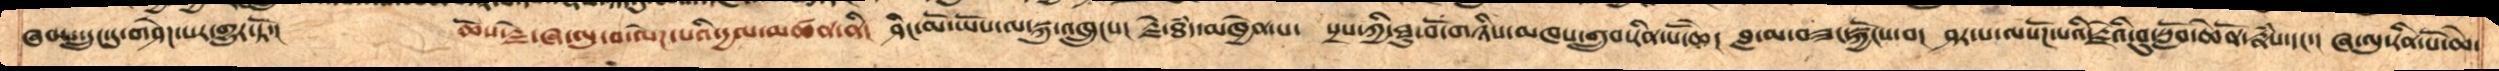ཞབས་དྲུང་དུ་གཤེཌ་པར་གྱུར་ཏོ།     ཆོས་རྗེ་ཞ་ལུ་བ་ལེཌ་པ་དྱལ་མཚན་ནི།  ཤིང་མོ་ཡོས་ལ་སྐུ་འཁྲུངས།  རྗེ་ཐཾད་མཁྱེན་པ།  སྲས་ཀྱི་ཐུ་བོ་གཉིས་མཁས་གྲུབ་རིན་པོ་ཆེ།  བླ་མ་བཟང་སྐྱོངས་བ།  ཤར་པ་ལསོཌ་པའི་རྗེའི་བུ་སློབ་ཆེན་པོ་རྣཾས་དང་།  ཞ་ལུ་རིན་པོ་ཆེ་
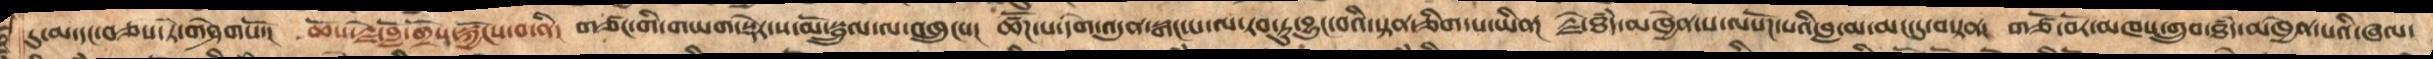དུ་མ་དང་བཅས་ཏེ་གཤེགསོ།  ཆོས་རྗེ་བློ་གྲོས་སྐྱོངས་བ་ནི།  གཙང་གི་གཡག་སྡེར་ས་མོ་སྦྲུལ་ལ་འཁྲུངས།  ཚོཌ་པ་དགེ་འདུན་སྒང་པ་ལ་རབ་ཏུ་བྱུང་བའི་སྟན་ཅིག་པ་ཡིན།  རྗེ་ཐཾད་མཁྱེན་པ་ལསོཌ་པའི་བླ་མ་མང་དུ་བསྟན།  གཙོ་བོར་མཁས་གྲུབ་ཐཾད་མཁྱེན་པའི་ཞལ་
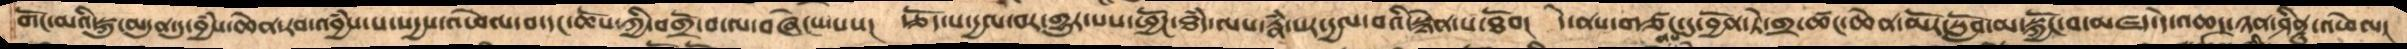གོང་མའི་སྐུ་མདུན་དུ་བྱཾས་ཆེན་རབ་འབྱཾས་པ་སདྱས་འཕེལ་བ་དང་ཆོས་ཀྱི་འགྲོ་བ་ལ་བཞེངས་པས།  རྩོད་པ་དྱལ་བར་གྱུར་པས་ཕྱོཌ་ཐཾད་ལས་རྣཾ་པར་དྱལ་བའི་སྙེན་པ་ཐོབ།  དེ་ནས་གཙང་དུ་བྱོན་ཏེ་གྲ་ཚང་ཆེན་མོར་སློབ་མ་སྐྱོང་བ་མཛད་དེ་འཆད་ཉན་ཤིནྟུ་འཕེལ།
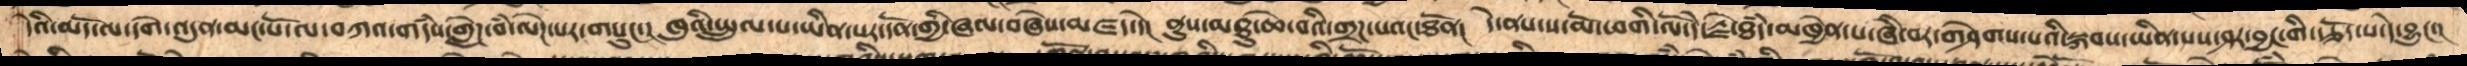དེའི་མོད་ལ་དགེ་འདུན་མང་པོ་ལ་བཀའ་གདཾས་གླེཌ་བཾ་ལེཌ་པར་གསུང་།  ཁུའི་སྤྲུལ་པ་ཡིན་པར་དོན་གྱི་ཞལ་བཞེས་མཛད་དེ།  ནུས་མཐུ་ཆེ་བའི་གྲཌ་པའང་ཐོན།  དེ་ནས་ས་མོ་ཕགི་ལོ་དེ་རྗེ་ཐཾད་མཁྱེན་པ་ཞི་བར་གཤེགས་པའི་སྐབས་ཡིན་པས་ཤར་བྱང་གི་རྩོད་པ་དེ་བྱུང་།
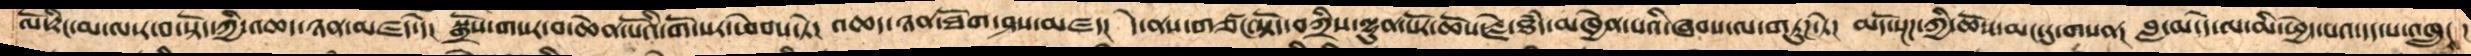ལོ་རྟིང་མ་ལ་ར་བ་སྟོད་ཀྱི་འཆད་ཉན་མཛད་དེ།  སྒྲོས་གསར་བ་ཆེན་པོའི་གོ་སར་ཕེབས་ཏེ།  འཆད་ཉན་ཐོག་ཤས་མཛད།  དེ་ནས་གཙང་སྟོད་བཀྲིས་ལྷུན་པོར་ཆོས་རྗེ་ཐཾད་མཁྱེན་པའི་ཞབས་ལ་གཏུཌ་ཏེ།  མདོ་སྔཌ་ཀྱི་ཆོས་མང་དུ་གསན།  བླ་མ་དེ་ལ་མི་ཕྱེད་པའ་དད་པ་འཁྲུངས།
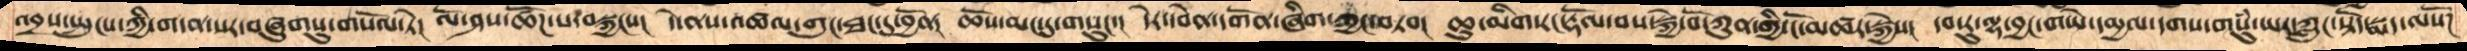འབྲས་སྤུངས་ཀྱི་གདན་སར་བཞུགསུ་གསོལ་ཏེ།  ལོ་ཤས་ཚོཌ་པ་བསྐྱངས།  དེ་ནས་མཚལ་གུང་ཐང་དུ་བྱོན། ཆོས་མང་དུ་གསུང་།  དེར་དབེན་དགོན་ཞིག་ཀྱང་བཏབ།  ཆུ་མིག་རང་རྡོལ་བས་སྐྱེ་བོ་ཀུན་གྱི་ངོ་མཚར་སྐྱེས།  དབ་རུ་ལྷ་བྱང་གཡེ་དམྱལ་དགས་གསུཾ་ཡར་ཀླུང་སྟོད་སྨད་ལསོཌ
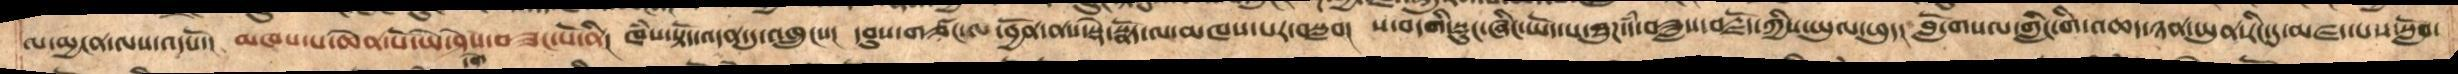ལ་མྱངན་ལས་འདསོ་།  མཁས་པ་ཆེན་པོ་ཡེ་ཤེས་བཟང་པོ་ནི།  ཁཾས་སྟོད་འདན་དུ་འཁྲུངས།  དབུས་གཙང་ལ་བྱོན་ནས་སྡེ་སྣོད་ལ་མཁས་པར་བསླབ།  ས་བདགི་སྡུང་ཞིང་ཡོད་པ་ཐུཌ་དཾ་བཟླས་བརྗོད་ཀྱིས་ཡུལ་ཕུད།  བློ་གསལ་གླིང་གི་འཆད་ཉན་ཡུན་རིང་དུ་མཛད་པས་སློབ་
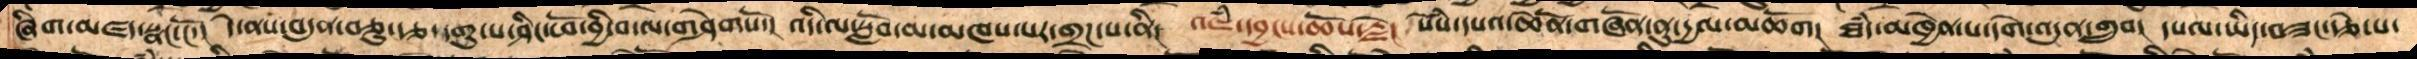ཞིག་མཛད་སྣང་ངོ་།  དེ་ནས་བདུན་ཅུ་རྩ་དགུ་པ་ཤིང་ཕོ་བྱི་བ་ལ་གཤེགསོ་།  འདི་ལ་སློབ་མ་མཁས་པར་གྲཌ་པ་ནི།  འཇཾ་དབྱངས་ཆོས་རྗེ།  སེཾས་དཔའ་ཆེནོ་གཞོན་ནུ་དྱལ་མཆོག།  ཐཾད་མཁྱེན་པ་དགེ་འདུན་གྲུབ།  དཔལ་ཡིད་བཟང་རྩེ་པ་
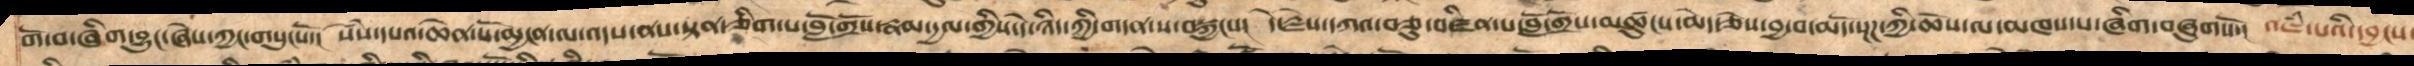གོ་བ་ཞིག་བྱུང་ཞེས་ཀྱང་གསུངསོ་།  སེསཾ་དཔའ་ཆེན་པོ་མྱངན་ལ་འདས་ནས་སྟན་ཅིག་པ་བློ་གྲོས་རྣམ་དྱལ་གྱིས་དེ་ཉིད་ཀྱི་གདན་ས་བསྐྱངས།  དེ་རྗེས་དཀའ་བཅུ་འཛིན་པ་བློ་གྲོས་མཚུངས་མེད་ཅེས་བྱ་བ་མདོ་སྔཌ་ཀྱི་ཆོས་ལ་མཁས་པ་ཞིག་བཞུགསོ།  འཇཾ་པའི་དབྱངས་
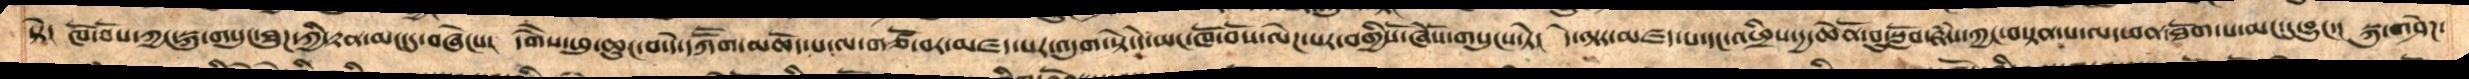སྟེ།  ཁོ་བོས་ཀྱང་སྐུ་གསུང་ཐུཌ་ཀྱི་རྟན་མང་དུ་བཞེངས།  དགཻས་ཕུ་ཆུང་བ་དེ་དཀཽག་མཆོད་པ་ལ་གཙོ་བར་མཛད་པར་འདུག་སྟེ་དེ་ཡང་ཁོ་བོས་ལེཌ་པར་བགྱིསོ་ཞེས་གསུངས་ཏེ།  དེ་ལྟར་མཛད་པ་དང་འཕྲིས་དྱ་ཆེནོ་བུ་སློབ་ཀྱང་བསྟན་པ་ལ་ཕན་ཐོག་པ་མང་དུ་བྱུང་།  སྐུ་གཤེཌ་
